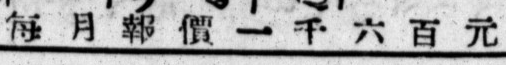每 月 報 價 一 千 六 百 元
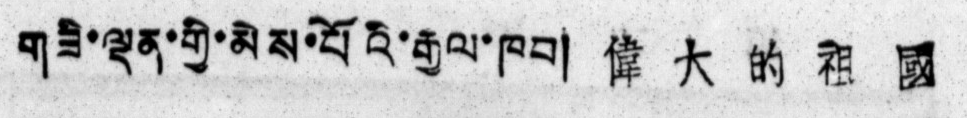གཟི་ལྡན་གྱི་མེས་པོའི་རྒྱལ་ཁབ། 偉 大 的 祖 國
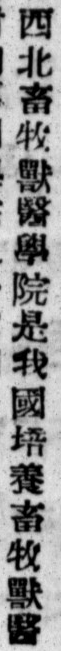西北畜牧獸醫學院是我國培養畜牧獸醫
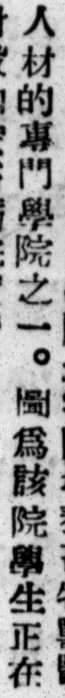人材的專門學院之一。圖爲該院學生正在
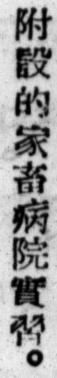附設的家畜病院實習。
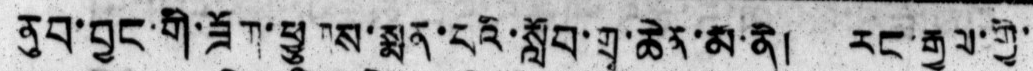ནུབ་བྱང་གི་ཟོག་ཕྱུགས་སྨན་པའི་སློབ་གྲྭ་ཆེན་མ་ནི། རང་རྒྱལ་གྱི་
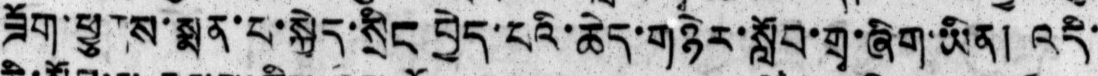ཟོག་ཕྱུགས་སྨན་པ་སྐྱེད་སྲིང བྱེད་པའི་ཆེད་གཉེར་སློབ་གྲྭ་ཞིག་ཡིན། འདི་
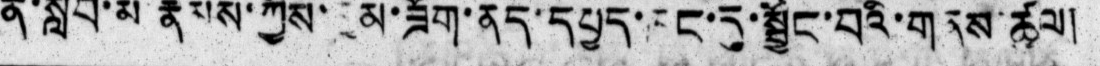ནི་སློབ་མ རྣམས་ཀྱིས་མ་ཟོག་ནད་དཔྱད་རང་དུ་སྦྱོང་བའི་གནས་ཚུལ།
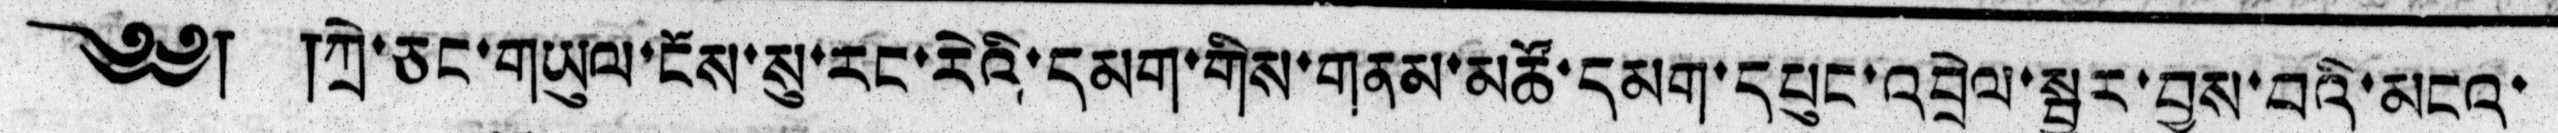༄༅། །ཀྲེ་ཅང་གཡུལ་ངོས་སུ་རང་རེའི་དམག་གིས་གནམ་མཚོ་དམག་དཔུང་འབྲེལ་སྦྱར་བྱས་པའི་མངའ་
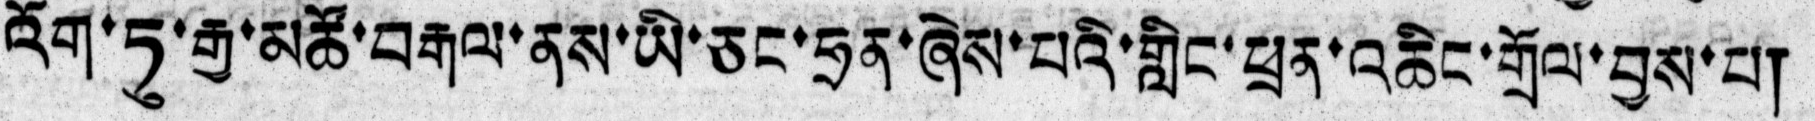འོག་ཏུ་རྒྱ་མཚོ་བརྒལ་ནས་ཡི་ཅང་ཧྲན་ཞེས་པའི་གླིང་ཕྲན་འཆིང་གྲོལ་བྱས་པ།
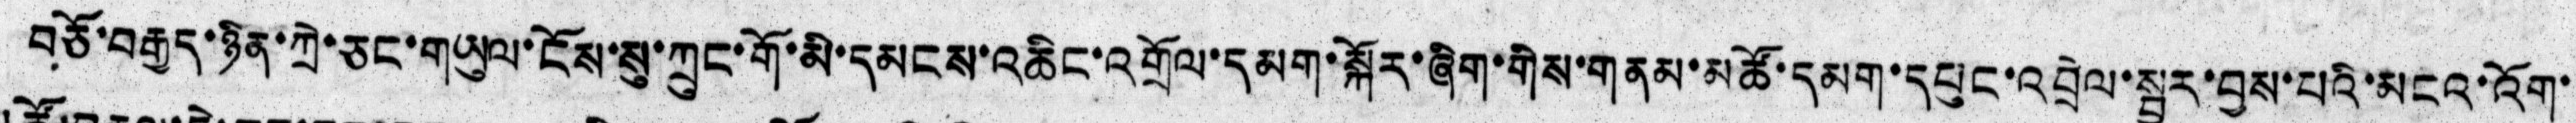བཅོ་བརྒྱད་ཉིན་ཀྲེ་ཅང་གཡུལ་ངོས་སུ་ཀྲུང་གོ་མི་དམངས་འཆིང་འགྲོལ་དམག་སྐོར་ཞིག་གིས་གནམ་མཚོ་དམག་དཔུང་འབྲེལ་སྦྱར་བྱས་པའི་མངའ་འོག་
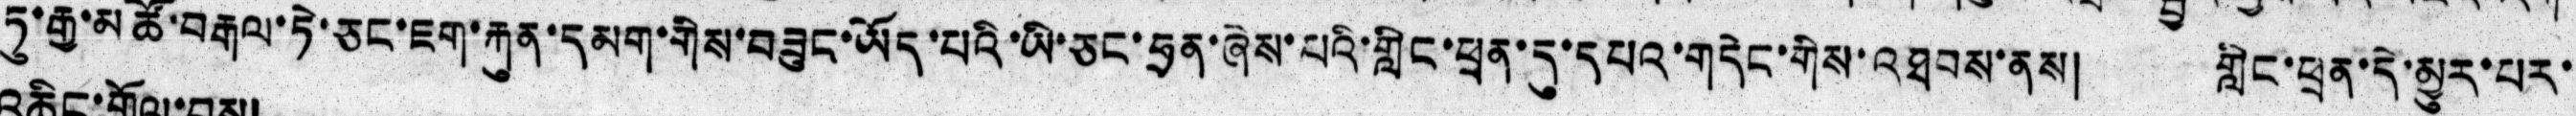ཏུ་རྒྱ་མཚོ་བརྒལ་ཏེ་ཅང་ཇག་རྐུན་དམག་གིས་བཟུང་ཡོད་པའི་ཡི་ཅང་ཧྲན་ཞེས་པའི་གླིང་ཕྲན་དུ་དཔའ་གདེང་གིས་འཐབས་ནས། གླིང་ཕྲན་དེ་མྱུར་པར
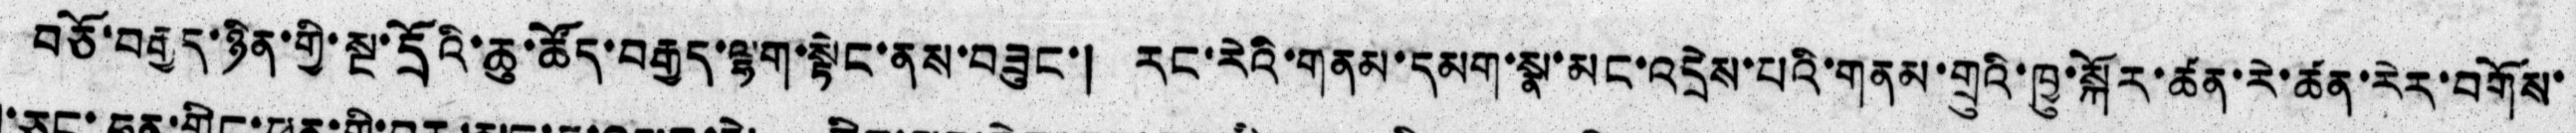བཅོ་བརྒྱད་ཉིན་གྱི་སྔ་དྲོའི་ཆུ་ཚོད་བརྒྱད་ལྷག་སྟེང་ནས་བཟུང་། རང་རེའི་གནམ་དམག་སྣ་མང་འདྲེས་པའི་གནམ་གྲུའི་ཁྱུ་སྐོར་ཚན་རེ་ཚན་རེར་བགོས་
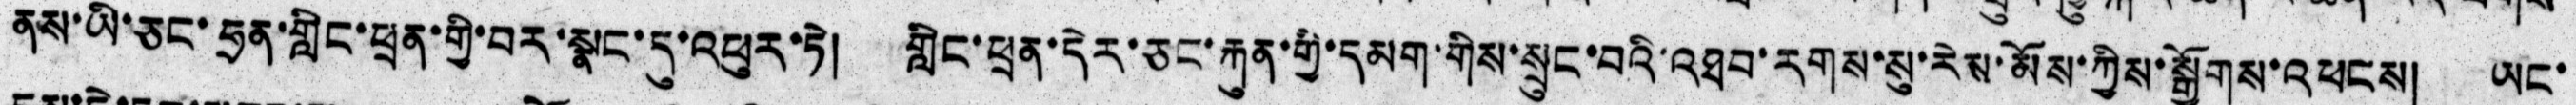ནས་ཡི་ཅང་ཧྲན་གླིང་ཕྲན་གྱི་བར་སྣང་དུ་འཕུར་ཏེ། གླིང་ཕྲན་དེར་ཅང་རྐུན་གྱི་དམག་གིས་སྲུང་བའི་འཐབ་རགས་སུ་རེས་མོས་ཀྱིས་སྒྱོགས་འཕངས། ཡང་
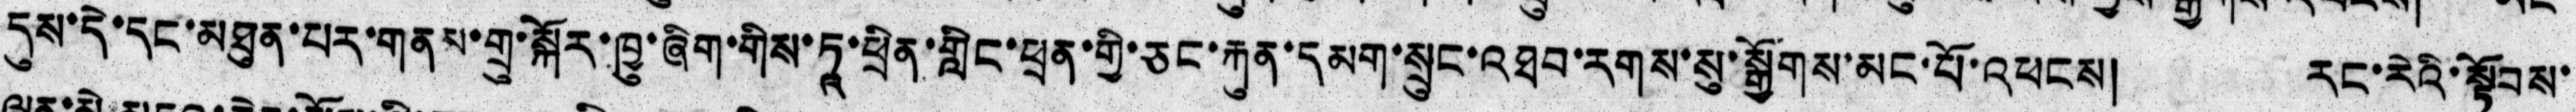དུས་དེ་དང་མཐུན་པར་གནས་གྲུ་སྐོར་ཁྱུ་ཞིག་གིས་ཏཱ་ཕྲིན་གླིང་ཕྲན་གྱི་ཅང་རྐུན་དམག་སྲུང་འཐབ་རགས་སུ་སྒྱོགས་མང་པོ་འཕངས། རང་རེའི་སྟོབས་
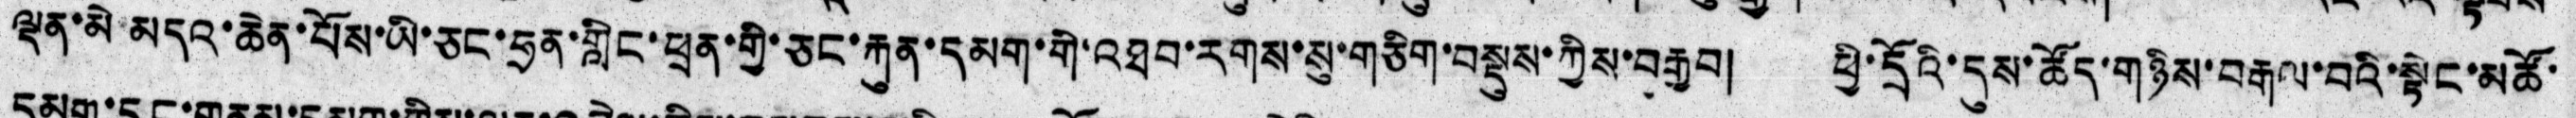ལྡན་མེ་མདའ་ཆེན་པོས་ཡི་ཅང་ཧྲན་གླིང་ཕྲན་གྱི་ཅང་རྐུན་དམག་གི་འཐབ་རགས་སུ་གཅིག་བསྡུས་ཀྱིས་བརྒྱབ། ཕྱི་དྲོའི་དུས་ཚོད་གཉིས་བརྒལ་བའི་སྟེང་མཚོ་
